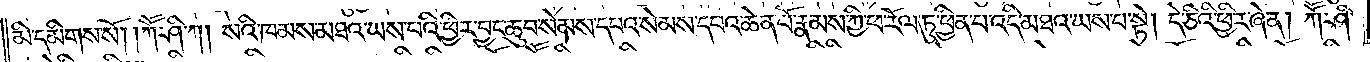མི་དམིགས་སོ། །ཀཽ་ཤི་ཀ། སའི་ཁམས་མཐའ་ཡས་པའི་ཕྱིར་བྱང་ཆུབ་སེམས་དཔའ་སེམས་དཔའ་ཆེན་པོ་རྣམས་ཀྱི་ཕ་རོལ་ཏུ་ཕྱིན་པ་འདི་མཐའ་ཡས་པ་སྟེ། དེ་ཅིའི་ཕྱིར་ཞེ་ན། ཀཽ་ཤི་
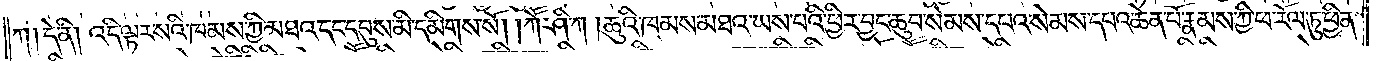ཀ། དེ་ནི། འདི་ལྟར་སའི་ཁམས་ཀྱི་མཐའ་དང་དབུས་མི་དམིགས་སོ། །ཀཽ་ཤི་ཀ། ཆུའི་ཁམས་མཐའ་ཡས་པའི་ཕྱིར་བྱང་ཆུབ་སེམས་དཔའ་སེམས་དཔའ་ཆེན་པོ་རྣམས་ཀྱི་ཕ་རོལ་ཏུ་ཕྱིན་
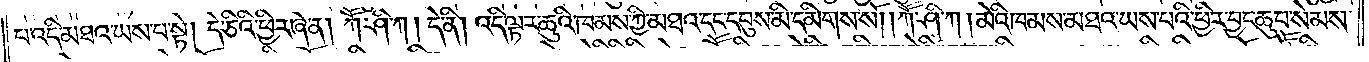པ་འདི་མཐའ་ཡས་པ་སྟེ། དེ་ཅིའི་ཕྱིར་ཞེ་ན། ཀཽ་ཤི་ཀ། དེ་ནི། འདི་ལྟར་ཆུའི་ཁམས་ཀྱི་མཐའ་དང་དབུས་མི་དམིགས་སོ། །ཀཽ་ཤི་ཀ། མེའི་ཁམས་མཐའ་ཡས་པའི་ཕྱིར་བྱང་ཆུབ་སེམས་
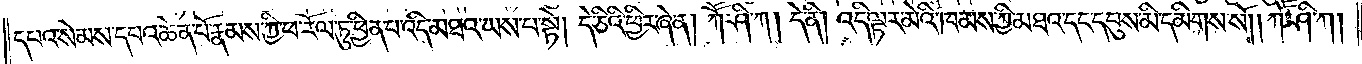དཔའ་སེམས་དཔའ་ཆེན་པོ་རྣམས་ཀྱི་ཕ་རོལ་ཏུ་ཕྱིན་པ་འདི་མཐའ་ཡས་པ་སྟེ། དེ་ཅིའི་ཕྱིར་ཞེ་ན། ཀཽ་ཤི་ཀ། དེ་ནི། འདི་ལྟར་མེའི་ཁམས་ཀྱི་མཐའ་དང་དབུས་མི་དམིགས་སོ། །ཀཽ་ཤི་ཀ།
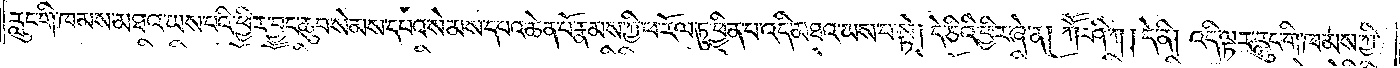རླུང་གི་ཁམས་མཐའ་ཡས་པའི་ཕྱིར་བྱང་ཆུབ་སེམས་དཔའ་སེམས་དཔའ་ཆེན་པོ་རྣམས་ཀྱི་ཕ་རོལ་ཏུ་ཕྱིན་པ་འདི་མཐའ་ཡས་པ་སྟེ། དེ་ཅིའི་ཕྱིར་ཞེ་ན། ཀཽ་ཤི་ཀ། དེ་ནི། འདི་ལྟར་རླུང་གི་ཁམས་ཀྱི་
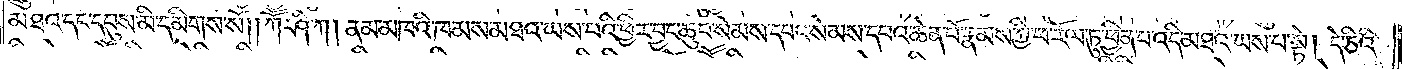མཐའ་དང་དབུས་མི་དམིགས་སོ། །ཀཽ་ཤི་ཀ། ནམ་མཁའི་ཁམས་མཐའ་ཡས་པའི་ཕྱིར་བྱང་ཆུབ་སེམས་དཔའ་སེམས་དཔའ་ཆེན་པོ་རྣམས་ཀྱི་ཕ་རོལ་ཏུ་ཕྱིན་པ་འདི་མཐའ་ཡས་པ་སྟེ། དེ་ཅིའི་
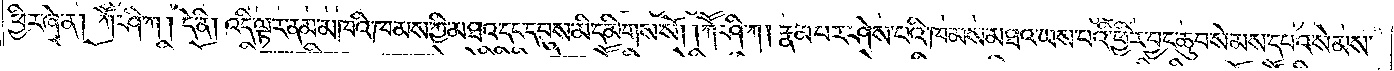ཕྱིར་ཞེ་ན། ཀཽ་ཤི་ཀ། དེ་ནི། འདི་ལྟར་ནམ་མཁའི་ཁམས་ཀྱི་མཐའ་དང་དབུས་མི་དམིགས་སོ། །ཀཽ་ཤི་ཀ། རྣམ་པར་ཤེས་པའི་ཁམས་མཐའ་ཡས་པའི་ཕྱིར་བྱང་ཆུབ་སེམས་དཔའ་སེམས་
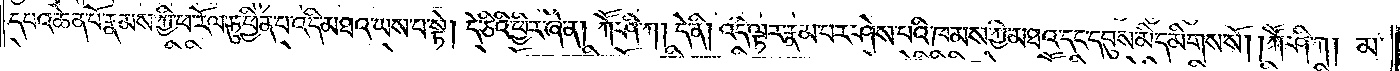དཔའ་ཆེན་པོ་རྣམས་ཀྱི་ཕ་རོལ་ཏུ་ཕྱིན་པ་འདི་མཐའ་ཡས་པ་སྟེ། དེ་ཅིའི་ཕྱིར་ཞེ་ན། ཀཽ་ཤི་ཀ། དེ་ནི། འདི་ལྟར་རྣམ་པར་ཤེས་པའི་ཁམས་ཀྱི་མཐའ་དང་དབུས་མི་དམིགས་སོ། །ཀཽ་ཤི་ཀ། མ་
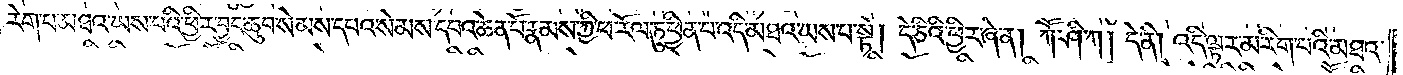རེག་པ་མཐའ་ཡས་པའི་ཕྱིར་བྱང་ཆུབ་སེམས་དཔའ་སེམས་དཔའ་ཆེན་པོ་རྣམས་ཀྱི་ཕ་རོལ་ཏུ་ཕྱིན་པ་འདི་མཐའ་ཡས་པ་སྟེ། དེ་ཅིའི་ཕྱིར་ཞེ་ན། ཀཽ་ཤི་ཀ། དེ་ནི། འདི་ལྟར་མ་རིག་པའི་མཐའ་
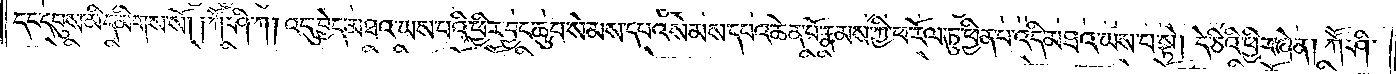དང་དབུས་མི་དམིགས་སོ། །ཀཽ་ཤི་ཀ། འདུ་བྱེད་མཐའ་ཡས་པའི་ཕྱིར་བྱང་ཆུབ་སེམས་དཔའ་སེམས་དཔའ་ཆེན་པོ་རྣམས་ཀྱི་ཕ་རོལ་ཏུ་ཕྱིན་པ་འདི་མཐའ་ཡས་པ་སྟེ། དེ་ཅིའི་ཕྱིར་ཞེ་ན། ཀཽ་ཤི་
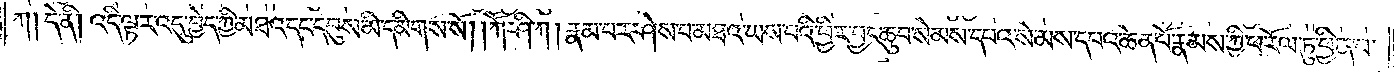ཀ། དེ་ནི། འདི་ལྟར་འདུ་བྱེད་ཀྱི་མཐའ་དང་དབུས་མི་དམིགས་སོ། །ཀཽ་ཤི་ཀ། རྣམ་པར་ཤེས་པ་མཐའ་ཡས་པའི་ཕྱིར་བྱང་ཆུབ་སེམས་དཔའ་སེམས་དཔའ་ཆེན་པོ་རྣམས་ཀྱི་ཕ་རོལ་ཏུ་ཕྱིན་པ་
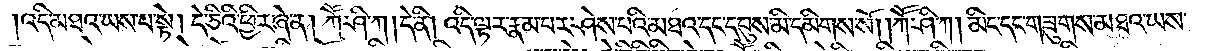འདི་མཐའ་ཡས་པ་སྟེ། དེ་ཅིའི་ཕྱིར་ཞེ་ན། ཀཽ་ཤི་ཀ། དེ་ནི། འདི་ལྟར་རྣམ་པར་ཤེས་པའི་མཐའ་དང་དབུས་མི་དམིགས་སོ། །ཀཽ་ཤི་ཀ། མིང་དང་གཟུགས་མཐའ་ཡས་
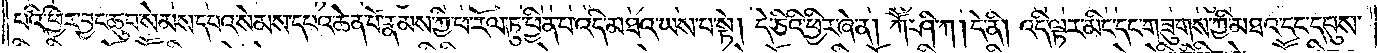པའི་ཕྱིར་བྱང་ཆུབ་སེམས་དཔའ་སེམས་དཔའ་ཆེན་པོ་རྣམས་ཀྱི་ཕ་རོལ་ཏུ་ཕྱིན་པ་འདི་མཐའ་ཡས་པ་སྟེ། དེ་ཅིའི་ཕྱིར་ཞེ་ན། ཀཽ་ཤི་ཀ། དེ་ནི། འདི་ལྟར་མིང་དང་གཟུགས་ཀྱི་མཐའ་དང་དབུས་
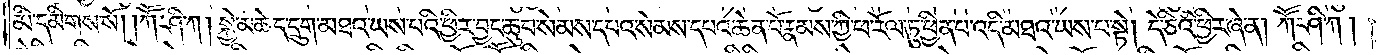མི་དམིགས་སོ། །ཀཽ་ཤི་ཀ། སྐྱེ་མཆེད་དྲུག་མཐའ་ཡས་པའི་ཕྱིར་བྱང་ཆུབ་སེམས་དཔའ་སེམས་དཔའ་ཆེན་པོ་རྣམས་ཀྱི་ཕ་རོལ་ཏུ་ཕྱིན་པ་འདི་མཐའ་ཡས་པ་སྟེ། དེ་ཅིའི་ཕྱིར་ཞེ་ན། ཀཽ་ཤི་ཀ།
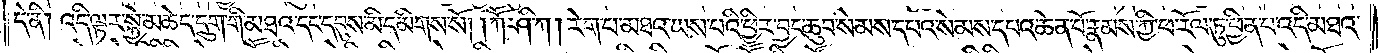དེ་ནི། འདི་ལྟར་སྐྱེ་མཆེད་དྲུག་གི་མཐའ་དང་དབུས་མི་དམིགས་སོ། །ཀཽ་ཤི་ཀ། རེག་པ་མཐའ་ཡས་པའི་ཕྱིར་བྱང་ཆུབ་སེམས་དཔའ་སེམས་དཔའ་ཆེན་པོ་རྣམས་ཀྱི་ཕ་རོལ་ཏུ་ཕྱིན་པ་འདི་མཐའ་
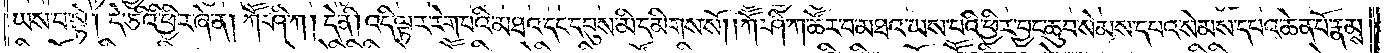ཡས་པ་སྟེ། དེ་ཅིའི་ཕྱིར་ཞེ་ན། ཀཽ་ཤི་ཀ། དེ་ནི། འདི་ལྟར་རེག་པའི་མཐའ་དང་དབུས་མི་དམིགས་སོ། །ཀཽ་ཤི་ཀ་ཚོར་བ་མཐའ་ཡས་པའི་ཕྱིར་བྱང་ཆུབ་སེམས་དཔའ་སེམས་དཔའ་ཆེན་པོ་རྣམས་
